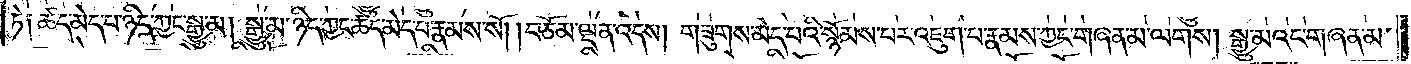ཏེ༑ ཚད་མེད་པ་ཉིད་ཀྱང་སྒྱུ་མ། སྒྱུ་མ་ཉིད་ཀྱང་ཚད་མེད་པ་རྣམས་སོ། །བཅོམ་ལྡན་འདས། གཟུགས་མེད་པའི་སྙོམས་པར་འཇུག་པ་རྣམས་ཀྱང་གཞན་མ་ལགས། སྒྱུ་མའང་གཞན་མ་
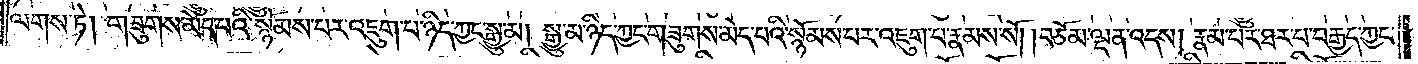ལགས་ཏེ། གཟུགས་མེད་པའི་སྙོམས་པར་འཇུག་པ་ཉིད་ཀྱང་སྒྱུ་མ། སྒྱུ་མ་ཉིད་ཀྱང་གཟུགས་མེད་པའི་སྙོམས་པར་འཇུག་པ་རྣམས་སོ། །བཅོམ་ལྡན་འདས། རྣམ་པར་ཐར་པ་བརྒྱད་ཀྱང་
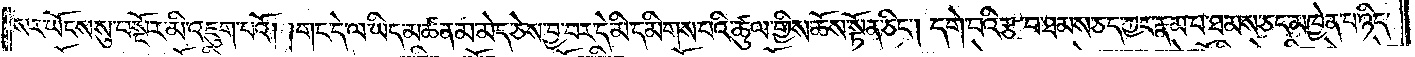སར་ཡོངས་སུ་བསྔོར་མི་འཇུག་པའོ། །གང་དེ་ལ་ཡིད་མཚན་མ་མེད་ཅེས་བྱ་བར་དེ་མི་དམིགས་པའི་ཚུལ་གྱིས་ཆོས་སྟོན་ཅིང༌། དགེ་བའི་རྩ་བ་ཐམས་ཅད་ཀྱང་རྣམ་པ་ཐམས་ཅད་མཁྱེན་པ་ཉིད་
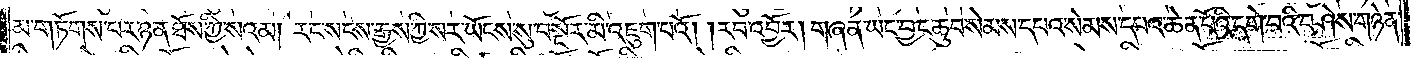མ་གཏོགས་པར་ཉན་ཐོས་ཀྱི་སའམ། རང་སངས་རྒྱས་ཀྱི་སར་ཡོངས་སུ་བསྔོར་མི་འཇུག་པའོ། །རབ་འབྱོར། གཞན་ཡང་བྱང་ཆུབ་སེམས་དཔའ་སེམས་དཔའ་ཆེན་པོའི་དགེ་བའི་བཤེས་གཉེན་
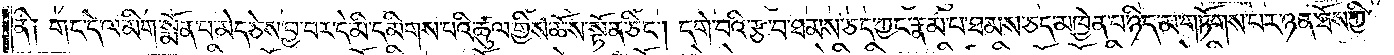ནི༑ གང་དེ་ལ་མིག་སྨོན་པ་མེད་ཅེས་བྱ་བར་དེ་མི་དམིགས་པའི་ཚུལ་གྱིས་ཆོས་སྟོན་ཅིང༌། དགེ་བའི་རྩ་བ་ཐམས་ཅད་ཀྱང་རྣམ་པ་ཐམས་ཅད་མཁྱེན་པ་ཉིད་མ་གཏོགས་པར་ཉན་ཐོས་ཀྱི་
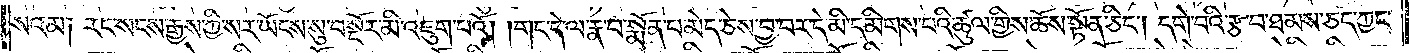སའམ༑ རང་སངས་རྒྱས་ཀྱི་སར་ཡོངས་སུ་བསྔོར་མི་འཇུག་པའོ། །གང་དེ་ལ་རྣ་བ་སྨོན་པ་མེད་ཅེས་བྱ་བར་དེ་མི་དམིགས་པའི་ཚུལ་གྱིས་ཆོས་སྟོན་ཅིང༌། དགེ་བའི་རྩ་བ་ཐམས་ཅད་ཀྱང་
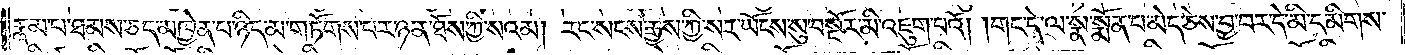རྣམ་པ་ཐམས་ཅད་མཁྱེན་པ་ཉིད་མ་གཏོགས་པར་ཉན་ཐོས་ཀྱི་སའམ། རང་སངས་རྒྱས་ཀྱི་སར་ཡོངས་སུ་བསྔོར་མི་འཇུག་པའོ། །གང་དེ་ལ་སྣ་སྨོན་པ་མེད་ཅེས་བྱ་བར་དེ་མི་དམིགས་
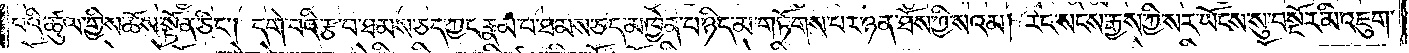པའི་ཚུལ་གྱིས་ཆོས་སྟོན་ཅིང༌། དགེ་བའི་རྩ་བ་ཐམས་ཅད་ཀྱང་རྣམ་པ་ཐམས་ཅད་མཁྱེན་པ་ཉིད་མ་གཏོགས་པར་ཉན་ཐོས་ཀྱི་སའམ། རང་སངས་རྒྱས་ཀྱི་སར་ཡོངས་སུ་བསྔོར་མི་འཇུག་
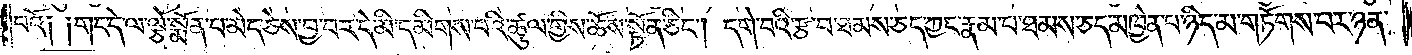པའོ༑ ༑གང་དེ་ལ་ལྕེ་སྨོན་པ་མེད་ཅེས་བྱ་བར་དེ་མི་དམིགས་པའི་ཚུལ་གྱིས་ཆོས་སྟོན་ཅིང༌། དགེ་བའི་རྩ་བ་ཐམས་ཅད་ཀྱང་རྣམ་པ་ཐམས་ཅད་མཁྱེན་པ་ཉིད་མ་གཏོགས་པར་ཉན་
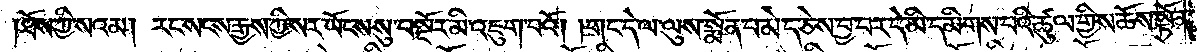ཐོས་ཀྱི་སའམ། རང་སངས་རྒྱས་ཀྱི་སར་ཡོངས་སུ་བསྔོར་མི་འཇུག་པའོ། །གང་དེ་ལ་ལུས་སྨོན་པ་མེད་ཅེས་བྱ་བར་དེ་མི་དམིགས་པའི་ཚུལ་གྱིས་ཆོས་སྟོན་
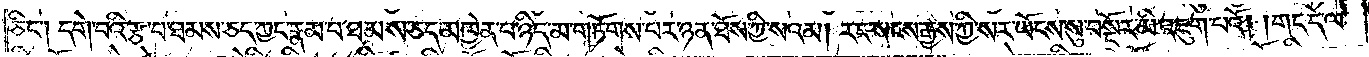ཅིང༌། དགེ་བའི་རྩ་བ་ཐམས་ཅད་ཀྱང་རྣམ་པ་ཐམས་ཅད་མཁྱེན་པ་ཉིད་མ་གཏོགས་པར་ཉན་ཐོས་ཀྱི་སའམ། རང་སངས་རྒྱས་ཀྱི་སར་ཡོངས་སུ་བསྔོར་མི་འཇུག་པའོ། །གང་དེ་ལ་
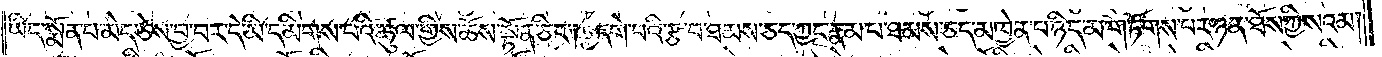ཡིད་སྨོན་པ་མེད་ཅེས་བྱ་བར་དེ་མི་དམིགས་པའི་ཚུལ་གྱིས་ཆོས་སྟོན་ཅིང༌། དགེ་བའི་རྩ་བ་ཐམས་ཅད་ཀྱང་རྣམ་པ་ཐམས་ཅད་མཁྱེན་པ་ཉིད་མ་གཏོགས་པར་ཉན་ཐོས་ཀྱི་སའམ།
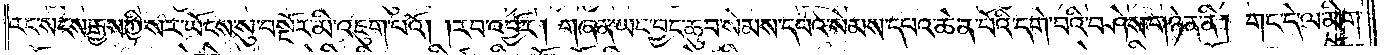རང་སངས་རྒྱས་ཀྱི་སར་ཡོངས་སུ་བསྔོར་མི་འཇུག་པའོ། །རབ་འབྱོར། གཞན་ཡང་བྱང་ཆུབ་སེམས་དཔའ་སེམས་དཔའ་ཆེན་པོའི་དགེ་བའི་བཤེས་གཉེན་ནི། གང་དེ་ལ་མིག་
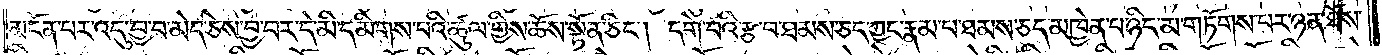མངོན་པར་འདུ་བྱ་བ་མེད་ཅེས་བྱ་བར་དེ་མི་དམིགས་པའི་ཚུལ་གྱིས་ཆོས་སྟོན་ཅིང༌། དགེ་བའི་རྩ་བ་ཐམས་ཅད་ཀྱང་རྣམ་པ་ཐམས་ཅད་མཁྱེན་པ་ཉིད་མ་གཏོགས་པར་ཉན་ཐོས་
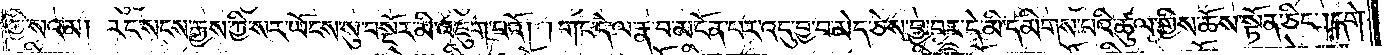ཀྱི་སའམ། རང་སངས་རྒྱས་ཀྱི་སར་ཡོངས་སུ་བསྔོར་མི་འཇུག་པའོ། །གང་དེ་ལ་རྣ་བ་མངོན་པར་འདུ་བྱ་བ་མེད་ཅེས་བྱ་བར་དེ་མི་དམིགས་པའི་ཚུལ་གྱིས་ཆོས་སྟོན་ཅིང༌། དགེ་
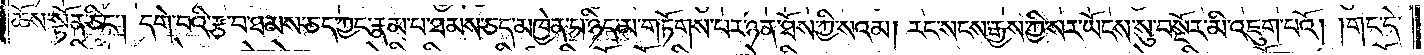ཆོས་སྟོན་ཅིང༌། དགེ་བའི་རྩ་བ་ཐམས་ཅད་ཀྱང་རྣམ་པ་ཐམས་ཅད་མཁྱེན་པ་ཉིད་མ་གཏོགས་པར་ཉན་ཐོས་ཀྱི་སའམ། རང་སངས་རྒྱས་ཀྱི་སར་ཡོངས་སུ་བསྔོར་མི་འཇུག་པའོ། །གང་དེ་
